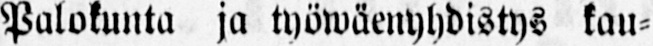Palokunta ja työwäenyhdistys kau-
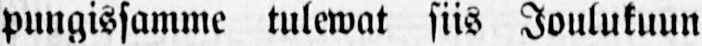pungissamme tulewat siis Joulukuun
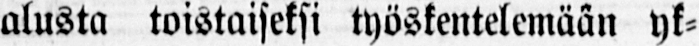alusta toistaiseksi työskentelemään yk-
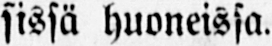sissä huoneissa.
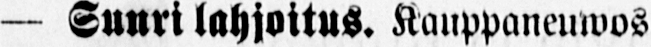— Suuri lahjoitus. Kauppaneuwos
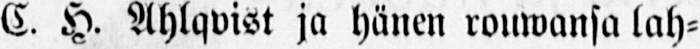C. H. Ahlqvist ja hänen rouwansa lah-
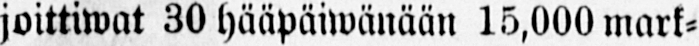joittiwat 30 hääpäiwänään 15,000 mark-
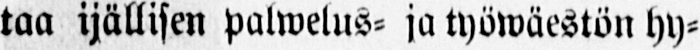taa ijällisen palwelus- ja työwäestön hy-
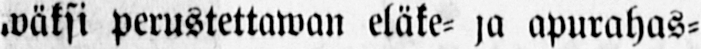wäksi perustettawan eläke- ja apurahas-
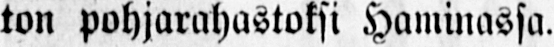ton pohjarahastoksi Haminassa.
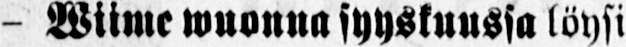— Wiime wuonna syyskuussa löysi-
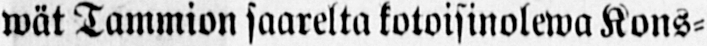wät Tammion saarelta kotoisinolewa Kons-
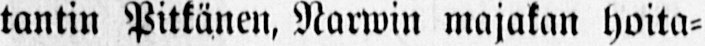tantin Pitkänen, Narwin majakan hoita-
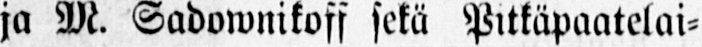ja M. Sadownikoff sekä Pitkäpaatelai-
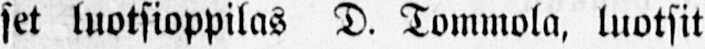set luotsioppilas D. Tommola, luotsit
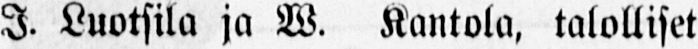I. Luotsila ja W. Kantola, talolliset
